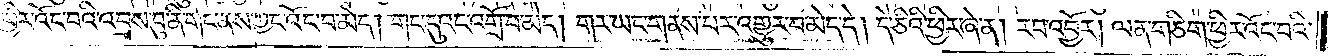ཕྱིར་འོང་བའི་འབྲས་བུ་ནི་གང་ནས་ཀྱང་འོང་བ་མེད། གང་དུའང་འགྲོ་བ་མེད། གར་ཡང་གནས་པར་འགྱུར་བ་མེད་དེ། དེ་ཅིའི་ཕྱིར་ཞེ་ན། རབ་འབྱོར། ལན་ཅིག་ཕྱིར་འོང་བའི་
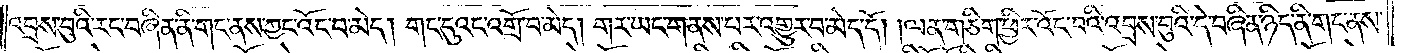འབྲས་བུའི་རང་བཞིན་ནི་གང་ནས་ཀྱང་འོང་བ་མེད། གང་དུའང་འགྲོ་བ་མེད། གར་ཡང་གནས་པར་འགྱུར་བ་མེད་དོ། །ལན་ཅིག་ཕྱིར་འོང་བའི་འབྲས་བུའི་དེ་བཞིན་ཉིད་ནི་གང་ནས་
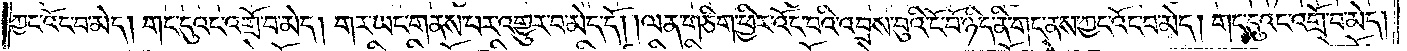ཀྱང་འོང་བ་མེད། གང་དུའང་འགྲོ་བ་མེད། གར་ཡང་གནས་པར་འགྱུར་བ་མེད་དོ། །ལན་ཅིག་ཕྱིར་འོང་བའི་འབྲས་བུའི་ངོ་བོ་ཉིད་ནི་གང་ནས་ཀྱང་འོང་བ་མེད། གང་དུའང་འགྲོ་བ་མེད།
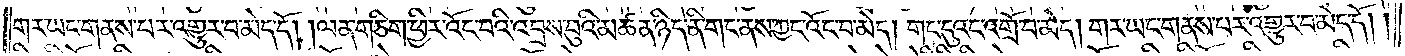གར་ཡང་གནས་པར་འགྱུར་བ་མེད་དོ། །ལན་ཅིག་ཕྱིར་འོང་བའི་འབྲས་བུའི་མཚན་ཉིད་ནི་གང་ནས་ཀྱང་འོང་བ་མེད། གང་དུའང་འགྲོ་བ་མེད། གར་ཡང་གནས་པར་འགྱུར་བ་མེད་དོ། །
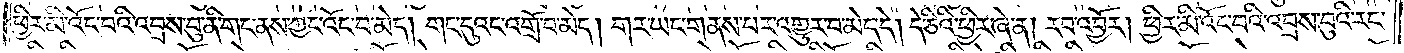ཕྱིར་མི་འོང་བའི་འབྲས་བུ་ནི་གང་ནས་ཀྱང་འོང་བ་མེད། གང་དུའང་འགྲོ་བ་མེད། གར་ཡང་གནས་པར་འགྱུར་བ་མེད་དེ། དེ་ཅིའི་ཕྱིར་ཞེ་ན། རབ་འབྱོར། ཕྱིར་མི་འོང་བའི་འབྲས་བུའི་རང་
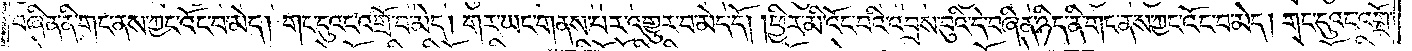བཞིན་ནི་གང་ནས་ཀྱང་འོང་བ་མེད། གང་དུའང་འགྲོ་བ་མེད། གར་ཡང་གནས་པར་འགྱུར་བ་མེད་དོ། །ཕྱིར་མི་འོང་བའི་འབྲས་བུའི་དེ་བཞིན་ཉིད་ནི་གང་ནས་ཀྱང་འོང་བ་མེད། གང་དུའང་འགྲོ་
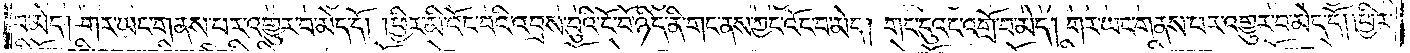བ་མེད། གར་ཡང་གནས་པར་འགྱུར་བ་མེད་དོ། །ཕྱིར་མི་འོང་བའི་འབྲས་བུའི་ངོ་བོ་ཉིད་ནི་གང་ནས་ཀྱང་འོང་བ་མེད། གང་དུའང་འགྲོ་བ་མེད། གར་ཡང་གནས་པར་འགྱུར་བ་མེད་དོ། །ཕྱིར་
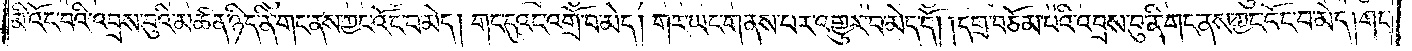མི་འོང་བའི་འབྲས་བུའི་མཚན་ཉིད་ནི་གང་ནས་ཀྱང་འོང་བ་མེད། གང་དུའང་འགྲོ་བ་མེད། གར་ཡང་གནས་པར་འགྱུར་བ་མེད་དོ། །དགྲ་བཅོམ་པའི་འབྲས་བུ་ནི་གང་ནས་ཀྱང་འོང་བ་མེད། གང་
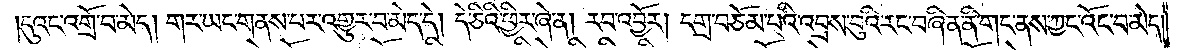དུའང་འགྲོ་བ་མེད། གར་ཡང་གནས་པར་འགྱུར་བ་མེད་དེ། དེ་ཅིའི་ཕྱིར་ཞེ་ན། རབ་འབྱོར། དགྲ་བཅོམ་པའི་འབྲས་བུའི་རང་བཞིན་ནི་གང་ནས་ཀྱང་འོང་བ་མེད།
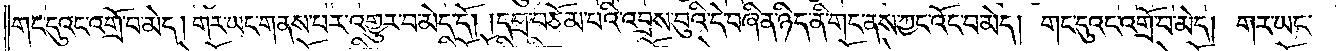གང་དུའང་འགྲོ་བ་མེད། གར་ཡང་གནས་པར་འགྱུར་བ་མེད་དོ། །དགྲ་བཅོམ་པའི་འབྲས་བུའི་དེ་བཞིན་ཉིད་ནི་གང་ནས་ཀྱང་འོང་བ་མེད། གང་དུའང་འགྲོ་བ་མེད། གར་ཡང་
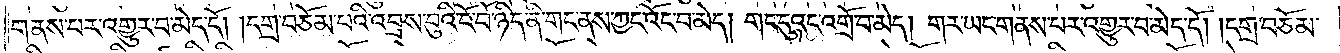གནས་པར་འགྱུར་བ་མེད་དོ། །དགྲ་བཅོམ་པའི་འབྲས་བུའི་ངོ་བོ་ཉིད་ནི་གང་ནས་ཀྱང་འོང་བ་མེད། གང་དུའང་འགྲོ་བ་མེད། གར་ཡང་གནས་པར་འགྱུར་བ་མེད་དོ། །དགྲ་བཅོམ་
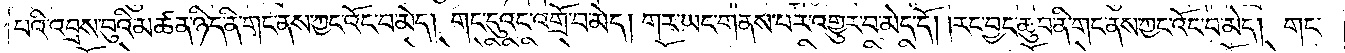པའི་འབྲས་བུའི་མཚན་ཉིད་ནི་གང་ནས་ཀྱང་འོང་བ་མེད། གང་དུའང་འགྲོ་བ་མེད། གར་ཡང་གནས་པར་འགྱུར་བ་མེད་དོ། །རང་བྱང་ཆུབ་ནི་གང་ནས་ཀྱང་འོང་བ་མེད། གང་
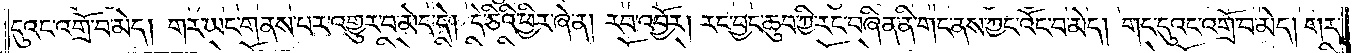དུའང་འགྲོ་བ་མེད། གར་ཡང་གནས་པར་འགྱུར་བ་མེད་དེ། དེ་ཅིའི་ཕྱིར་ཞེ་ན། རབ་འབྱོར། རང་བྱང་ཆུབ་ཀྱི་རང་བཞིན་ནི་གང་ནས་ཀྱང་འོང་བ་མེད། གང་དུའང་འགྲོ་བ་མེད། གར་
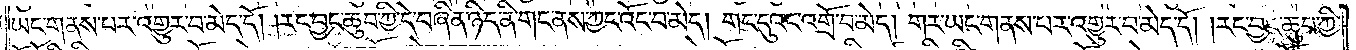ཡང་གནས་པར་འགྱུར་བ་མེད་དོ། །རང་བྱང་ཆུབ་ཀྱི་དེ་བཞིན་ཉིད་ནི་གང་ནས་ཀྱང་འོང་བ་མེད། གང་དུའང་འགྲོ་བ་མེད། གར་ཡང་གནས་པར་འགྱུར་བ་མེད་དོ། །རང་བྱང་ཆུབ་ཀྱི་
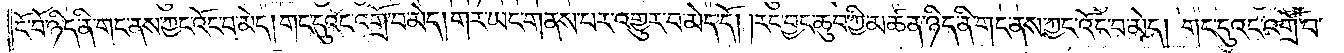ངོ་བོ་ཉིད་ནི་གང་ནས་ཀྱང་འོང་བ་མེད། གང་དུའང་འགྲོ་བ་མེད། གར་ཡང་གནས་པར་འགྱུར་བ་མེད་དོ། །རང་བྱང་ཆུབ་ཀྱི་མཚན་ཉིད་ནི་གང་ནས་ཀྱང་འོང་བ་མེད། གང་དུའང་འགྲོ་བ་
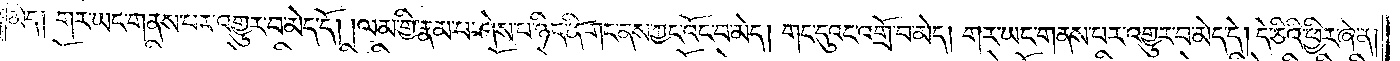མེད། གར་ཡང་གནས་པར་འགྱུར་བ་མེད་དོ། །ལམ་གྱི་རྣམ་པ་ཤེས་པ་ཉིད་ནི་གང་ནས་ཀྱང་འོང་བ་མེད། གང་དུའང་འགྲོ་བ་མེད། གར་ཡང་གནས་པར་འགྱུར་བ་མེད་དེ། དེ་ཅིའི་ཕྱིར་ཞེ་ན།
